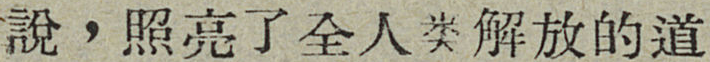說，照亮了全人类解放的道
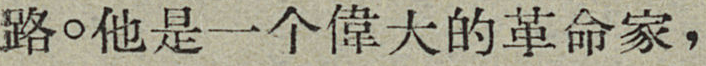路。他是一个偉大的革命家，
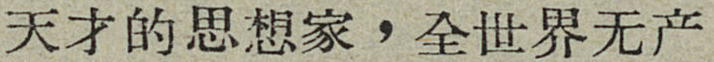天才的思想家，全世界无产
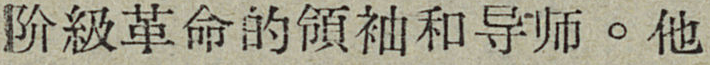阶級革命的領袖和导师。他
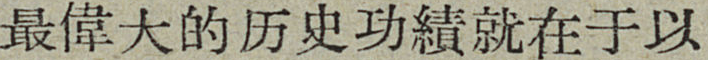最偉大的历史功績就在于以
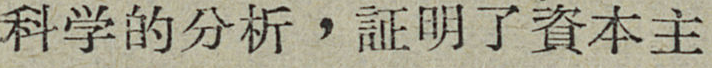科学的分析，証明了資本主
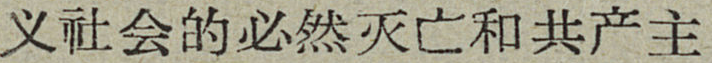义社会的必然灭亡和共产主
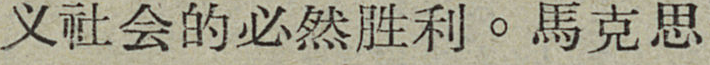义社会的必然胜利。馬克思
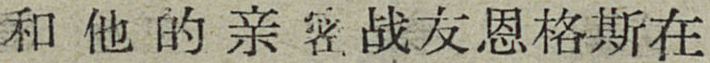和他的亲密战友恩格斯在
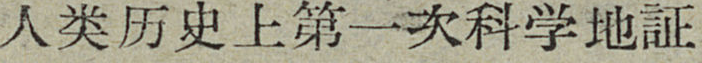人类历史上第一次科学地証
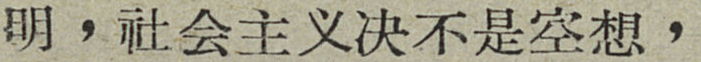明，社会主义决不是空想，
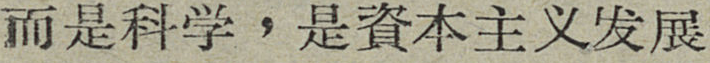而是科学，是資本主义发展
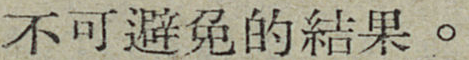不可避免的結果。
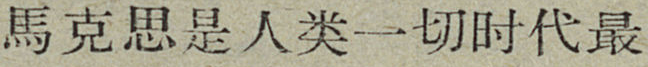馬克思是人类一切时代最
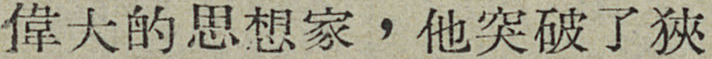偉大的思想家，他突破了狹
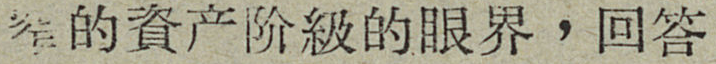窄的資产阶級的眼界，回答
